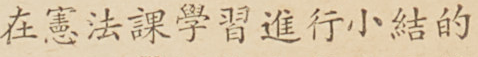在憲法課學習進行小結的
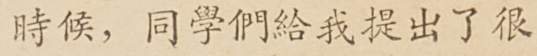時候，同學們給我提出了很
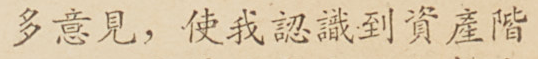多意見，使我認識到資產階
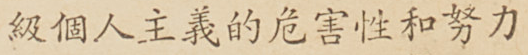級個人主義的危害性和努力
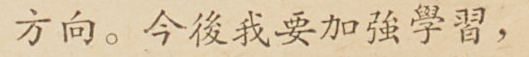方向。今後我要加強學習，
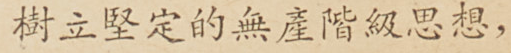樹立堅定的無產階級思想，
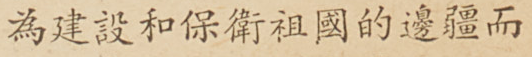為建設和保衛祖國的邊疆而
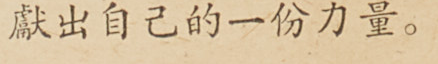獻出自己的一分力量。
